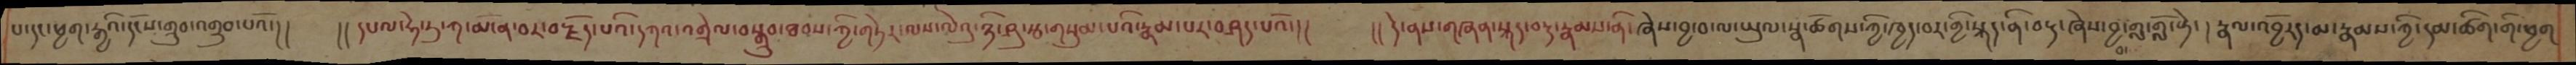པ་དང་ཕྱག་རྒྱའི་དངོས་གྲུབ་འགྲུབ་པའོ་།།    །།དཔལ་ཧེ་རུ་ཀ་མངོན་བར་བརྗོད་པའི་དཀའ་འགྲེལ་བསྒྲུབ་ཐབས་ཀྱི་གཏེར་ལས་ལེའུ་ཉི་ཤུ་རྩ་གསུམ་པའི་རྣམ་པར་བཤད་པའོ་།།    །།དེ་ནས་གཞན་སྐད་བརྡ་རྣམས་ནི་ཞེས་བྱ་བ་ལ་ཡུལ་སྣ་ཚོགས་ཀྱི་ཁྱད་བར་གྱི་སྐད་ནི་བརྡ་ཞེས་བྱ་གླ་གློ་སྟེ་། རྣལ་འབྱོརད་མ་རྣམས་ཀྱི་དམ་ཚིག་གི་ཕྱག
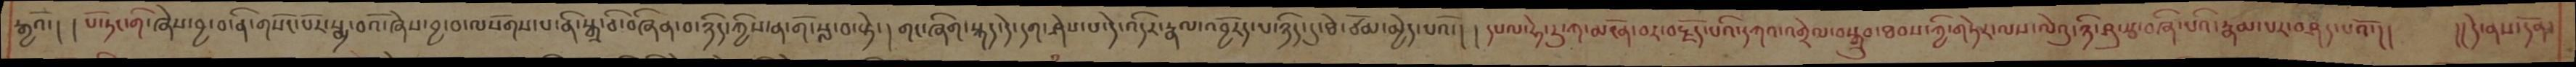རྒྱའོ་། །པོ་ཏང་གི་ཞེས་བྱ་བ་ནི་གསོང་པོར་སྨྲ་བའོ་ཞེས་བྱ་བ་ལསོགས་པ་ནི་སྒྲ་ཅི་བཞིན་བ་ཉིད་ཀྱིས་ན་གོ་སླ་བ་སྟེ་། གང་ཞིག་སྐད་དེ་དག་ཤེས་པ་དེ་འདིར་རྣལ་འབྱོརད་པ་ཉིད་དུ་ཐེ་ཙོམ་མྱེད་པའོ་། །དཔལ་ཧེ་རུ་ཀ་མངོན་བར་བརྗོད་པའི་དཀའ་འགྲེལ་བསྒྲུབ་ཐབས་ཀྱི་གཏེར་ལས་ལེའུ་ཉི་ཤུ་རྩ་བཞི་པའི་རྣམ་པར་བཤད་པའོ་།།       །། དེ་ནས་དོན་
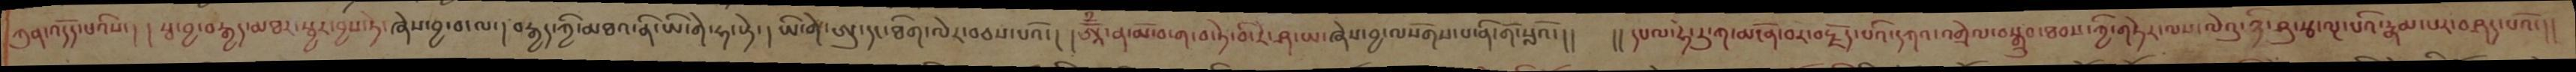ཀུན་འདོད་པའིས་། །རྩ་བྱ་བརྒྱད་མཐར་སྦྱར་བྱས་ཏེ་ཞེས་བྱ་བ་ལ་། བརྒྱད་ཀྱི་མཐའ་ནི་ཡི་གེ་ཧ་སྟེ་། ཡི་གེ་ཨུ་དང་ཐིག་ལེར་བཅས་པའོ་། །ཨཱོྃ་ན་མོ་བ་ག་བ་ཏེ་བི་རེ་ཤ་ཡ་ཞེས་བྱ་ལསོགས་པ་ནི་གོ་སླའོ་།།  །།དཔལ་ཧེ་རུ་ཀ་མངོན་པར་བརྗོད་པའི་དཀའ་འགྲེལ་བསྒྲུབ་ཐབས་ཀྱི་གཏེར་ལས་ལེའུ་ཉི་ཤུ་རྩ་ལྔ་པའི་རྣམ་པར་བཤད་པའོ་།།
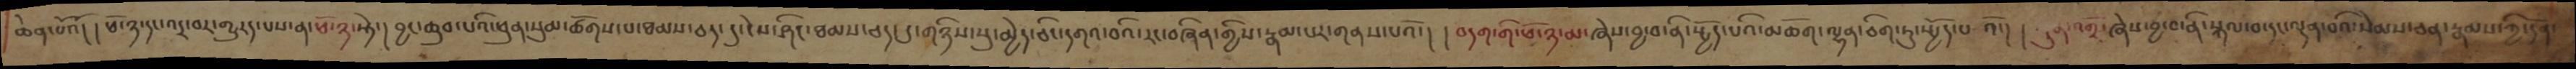ཆེན་པའོ་། །ཕོ་ཉ་དང་འདྲ་བར་གྱུརད་པས་ན་ཕོ་ཉ་སྟེ་། བྱང་ཆུབ་པའི་ཕུན་སུམ་ཚོགས་པ་ཐམས་ཅད་དུ་ངེས་ཤིང་ཐམས་ཅད་དུ་གཉིས་སུ་མྱེད་ཅིང་དགའ་བའི་རང་བཞིན་གྱིས་རྣམ་པར་གནས་པའོ་། །བདག་གི་ཕོ་ཉ་མ་ཞེས་བྱ་བ་ནི་སྤྱོད་པའི་མཆོག་ལྷན་ཅིག་ཏུ་སྤྱོད་པའོ་། །ཀུན་འགྲོ་ཞེས་བྱ་བ་ནི་སྐལ་བ་དང་ལྡན་པའི་སེམས་ཅན་རྣམས་ཀྱི་དོན་
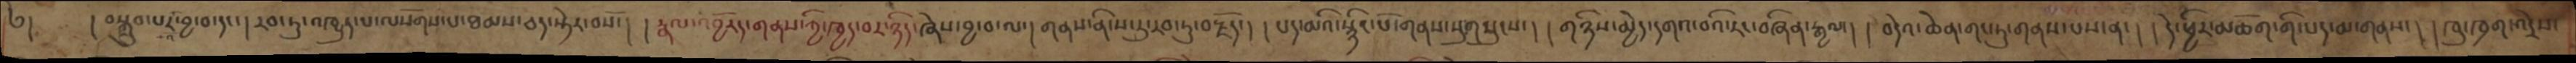༄། །བསྒྲུབ་པར་བྱ་བ་དང་། རབ་ཏུ་འཁྱུད་པ་ལསོགས་པ་ཐམས་ཅད་སྟེར་བའོ་། །རྣལ་འབྱོརད་གནས་ཀྱི་ཁྱད་བར་ཉིད་ཞེས་བྱ་བ་ལ་། གནས་ནི་ས་རུ་རབ་ཏུ་བརྗོད་། ། པད་མའི་སྙིང་པོ་གནས་སུ་གསུངས་། །གཉིས་མྱེད་དགའ་བའི་རང་བཞིན་རྒྱལ་། ། བདེའ་ཆེན་གང་ཏུ་གནས་པས་ན་། །དེ་ཕྱིར་མཆོག་གི་པད་མ་གནས་། །ཁུ་ཁྲག་འདྲེས་
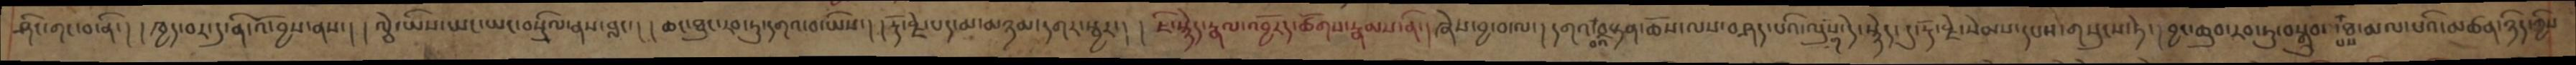ཤིང་གང་བ་ནི་། །ཁྱད་བར་དུ་ནི་འོ་བྱས་ནས་། །ལྕེ་ཡིས་ཡང་ཡང་བསྲིལ་ནས་བླང་། །ཆང་ཐུང་རབ་ཏུ་དགའ་བ་ཡིས་། །རྡོ་རྗེ་པད་མ་མཉམ་དགར་སྦྱར་། །ཇི་སྙེད་རྣལ་འབྱོརད་ཚོགས་རྣམས་ནི་། ཞེས་བྱ་བ་ལ་། དགའ་བའི་བསྟན་ཆོས་ལས་བཤད་པའི་ལུགས་དེ་སྙེད་། རྡོ་རྗེ་སེམས་དཔས་གསུངས་ཏེ་། བྱང་ཆུབ་རབ་ཏུ་བསྒྲུབ་པས་ཐ་མལ་པའི་མཚན་ཉིད་ཀྱིས
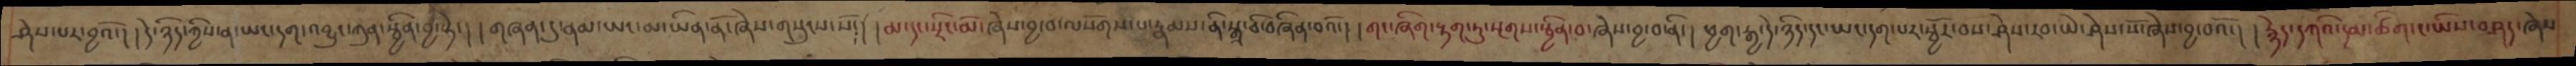ཤེས་པར་བྱའོ་། །དེ་ཉིད་ཀྱིས་ན་ཡང་དག་འབྱུང་ཀུན་སྦྱིན་བྱ་སྟེ་། །གཞན་དུ་ནམ་ཡང་མ་ཡིན་ནོ་ཞེས་གསུངས་སོ༴། །མ་དང་སྲིང་མོ་ཞེས་བྱ་བ་ལསོགས་པ་རྣམས་ནི་སྒྲ་ཅི་བཞིན་བའོ་། །གང་ཞིག་རྟག་ཏུ་སྔགས་སྦྱིན་བ་ཞེས་བྱ་བ་ནི་། ཕྱག་རྒྱ་དེ་ཉིད་དང་ཡང་དག་པར་སྦྱོར་བས་ཤེས་རབ་ཡེ་ཤེས་སོ་ཞེས་བྱ་བའོ་། །རྙེད་དཀའི་དམ་ཚིག་ང་ཡིས་བཤད་ཞེས་
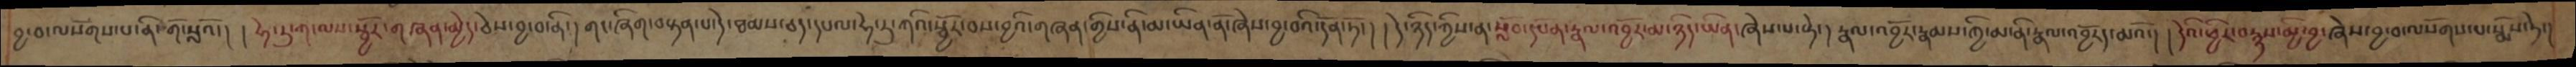བྱ་བ་ལསོགས་པ་ནི་གོ་སླའོ་། །ཧེ་རུ་ཀ་ལས་སྦྱོར་གཞན་མྱེད་ཅེས་བྱ་བ་ནི་།གང་ཞིག་བསྟན་པ་དེ་ཐམས་ཅད་དཔལ་ཧེ་རུ་ཀའི་སྦྱོར་བས་བྱའི་གཞན་གྱིས་ནི་མ་ཡིན་ནོ་ཞེས་བྱ་བའི་དོན་ཏོ་། །དེ་ཉིད་ཀྱིས་ན་སློབ་དཔོན་རྣལ་འབྱོར་མ་ཉིད་ཡིན་ཞེས་པ་སྟེ་།རྣལ་འབྱོར་རྣམས་ཀྱི་མ་ནི་རྣལ་འབྱོརད་མའོ་། །དེའི་ཕྱིར་བརྙས་མྱི་བྱ་ཞེས་བྱ་བ་ལསོགས་པ་སྨོས་ཏེ་།
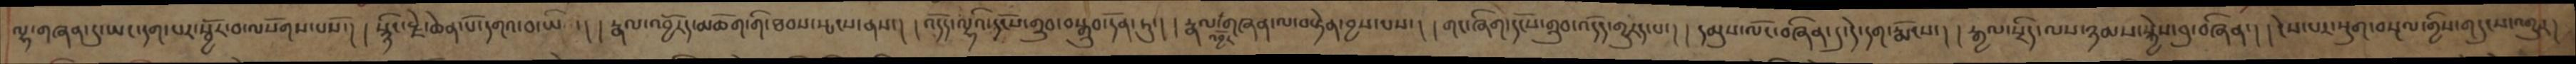ལྷ་གཞན་དུ་ཡང་དག་པར་སྦྱོར་བ་ལསོགས་པསོ་། །སྙིང་རྗེ་ཆེན་པོ་དགའ་བ་ཡི་། །རྣལ་འབྱོརད་མཆོག་གི་ཐབས་སྤངས་ནས་། །འདོད་ལྷའི་དངོས་གྲུབ་བསྒྲུབ་དོན་ཏུ་། །རྣལ་འབྱོར་གཞན་ལ་བསྟེན་བྱས་པས་། །གང་ཞིག་དངོས་གྲུབ་འདོད་གྱུརད་པ་། །དམུས་ལོང་བཞིན་དུ་དེ་དག་རྨོངས་། །རྒྱལ་སྲིད་ལས་ཉམས་སྐྱེས་བུ་བཞིན་། །ངེས་པར་སྡུག་བསྔལ་གྱིས་གདུངས་འགྱུར་།
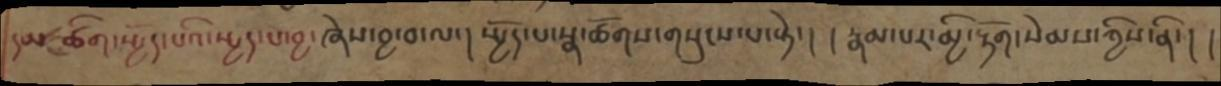དམ་ཚིག་སྤྱོད་པའི་སྤྱད་པ་བྱ་ཞེས་བྱ་བ་ལ་། སྤྱོད་པ་སྣ་ཚོགས་གསུངས་པ་སྟེ་། །རྣམ་པར་མྱི་རྟོག་སེམས་ཀྱིས་ནི་། །
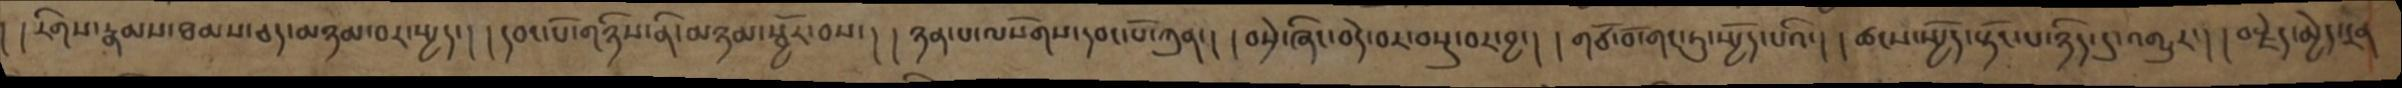། །རིགས་རྣམས་ཐམས་ཅད་མཉམ་བར་སྤྱད་། །དབང་པོ་གཉིས་ནི་མཉམ་སྦྱོར་བས་། །ཉན་པ་ལསོགས་དབང་པོ་ཀུན་། །བསྲེ་ཞིང་བདེ་བར་བསྡུ་བར་བྱ་། །གཙོ་བོ་གང་ཏུ་སྤྱོད་པའི་། །ཚངས་སྤྱོད་སྟོང་པ་ཉིད་དུ་འགྱུར་། །བརྫེད་མྱེད་དྲན
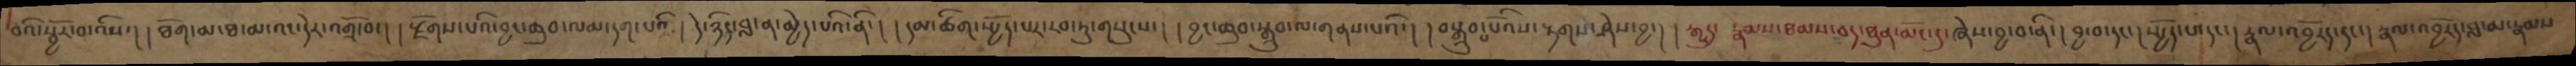བའི་སྦྱོར་བ་འིས་། །ཐོག་མ་ཐ་མ་འང་དེར་འགྲོ་བ་། །རྫོགས་པའི་བྱང་ཆུབ་ལམ་དག་པའི་། དེ་ཉིད་བླ་ན་མྱེད་པའི་ནི་། །དམ་ཚིག་སྤྱོད་པར་རབ་ཏུ་གསུངས་། །བྱང་ཆུབ་སྒྲུབ་ལ་གནས་པའི་། །བསྒྲུབ་པ་པོའིས་རྟགས་ཤེས་བྱ་། །རྒྱུད་རྣམས་ཐམས་ཅད་ཐུན་མོང་དུ་ཞེས་བྱ་བ་ནི་། བྱ་བ་དང་། སྤྱོད་པ་དང་། རྣལ་འབྱོརད་དང་། རྣལ་འབྱོརད་བླ་མ་རྣམས
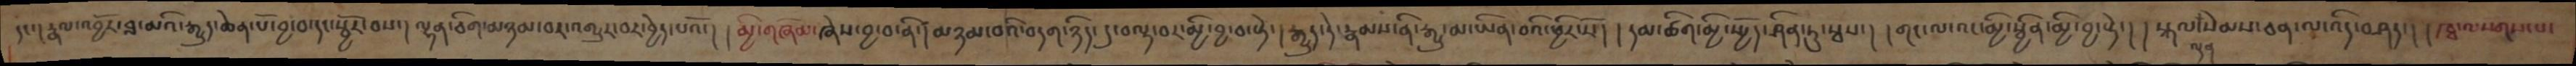དང་། རྣལ་འབྱོར་བླ་མའི་རྒྱུད་ཆེན་པོ་བྱ་བ་དང་སྦྱོར་བས་། ལྷན་ཅིག་མཉམ་བར་འགྱུར་བར་བྱེད་པའོ་། །མྱི་གཞོམ་ཞེས་བྱ་བ་ནི་། མཉམ་བའི་བདག་ཉིད་དུ་བལྟ་བར་མྱི་བྱ་བ་སྟེ་། རྒྱུད་དེ་རྣམས་ནི་རྒྱུ་མ་ཡིན་བའི་ཕྱིར་རོ་། །དམ་ཚིག་མྱི་སྤྱོད་ཤིན་ཏུ་སྦས་། །གང་ལ་འང་མྱི་སྦྱིན་མྱི་བྱ་སྟེ་། །སྐལ་ལྡན་སེམས་ཅན་ལ་འདི་བཤད་། །ཁྭ་ལསོགས་པ་
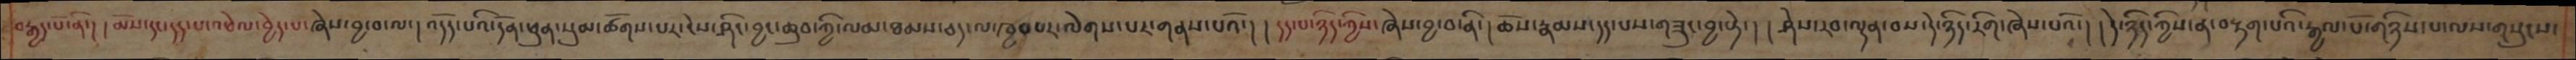བརྒྱད་པོ་ནི་། །མོས་དང་དད་པ་འཕེལ་བྱེད་པ་ཞེས་བྱ་བ་ལ་།འདོད་པའི་དོན་ཕུན་སུམ་ཚོགས་པར་ངེས་ཤིང་བྱང་ཆུབ་ཀྱི་ལམ་ཐམས་ཅད་ལ་ཁྱབཔར་ལེགས་པར་གནས་པའོ་། །དད་པ་ཉིད་ཀྱིས་ཞེས་བྱ་བ་ནི་།ཆོས་རྣམས་དད་པས་གཟུང་བྱ་སྟེ་། །ཤེས་རབ་ལྡན་བས་དེ་ཉིད་རིག་ཞེས་པའོ་། །དེ་ཉིད་ཀྱིས་ནི་བརྟག་པའི་རྒྱལ་པོ་གཉིས་པ་ལས་གསུངས་
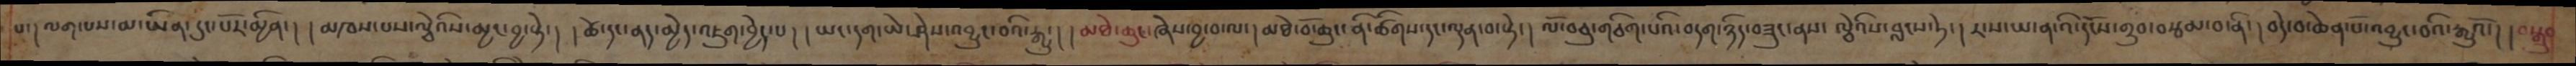པ་།ལག་པས་མ་ཡིན་དུང་པོར་མྱིན་། །མཁས་པས་ལྕེའིས་མྱང་བྱ་སྟེ་། །ཚེ་དང་ནད་མྱེད་འཇུག་བྱེད་པ། །ཡང་དག་ཡེ་ཤེས་འབྱུང་བའི་རྒྱུ་། །མཐེ་ཆུང་ཞེས་བྱ་བ་ལ་།མཐེ་བོ་ཆུང་ནི་ཚིགས་དང་ལྡན་བ་སྟེ་། ལོ་བཅུ་གཅིག་པའི་བདག་ཉིད་བཟུང་ནས་ ལྕེའིས་བླངས་ཏེ་།ར་ས་ཡ་ན་འི་དངོས་གྲུབ་བརྩམ་བ་ནི་།བདེ་བ་ཆེན་པོ་འབྱུང་བའི་རྒྱུའོ་། །བསྒྲུབ
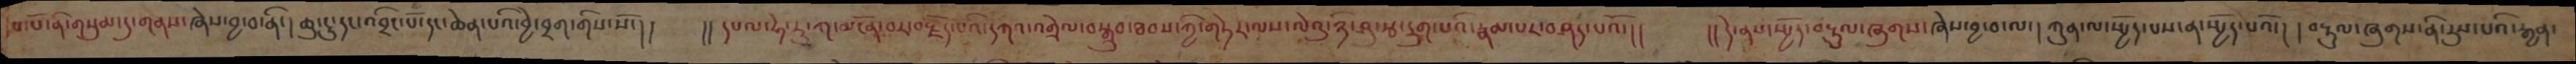པ་པོ་ནི་གསུམ་དུ་གནས་ཞེས་བྱ་བ་ནི་།ཆུང་ངུ་དང་འབྲིང་པོ་དང་ཆེན་པའི་བྱེ་བྲག་གིས་སོ་།།   །།དཔལ་ཧེ་རུ་ཀ་ལ་མངོན་བར་བརྫོད་པའི་དཀའ་འགྲེལ་བསྒྲུབ་ཐབས་ཀྱི་གཏེར་ལས་ལེའུ་ཉི་ཤུ་རྩ་དྲུག་པའི་རྣམ་པར་བཤད་པའོ་།།    །།དེ་ནས་སྤྱོད་བརྟུལ་ཞུགས་ཞེས་བྱ་བ་ལ་།ཀུན་ལ་སྤྱོད་པས་ན་སྤྱོད་པའོ། །བརྟུལ་ཞུགས་ནི་རུས་པའི་རྒྱན་
